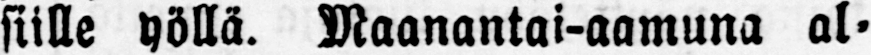siille yöllä. Maanantai-aamuna al-
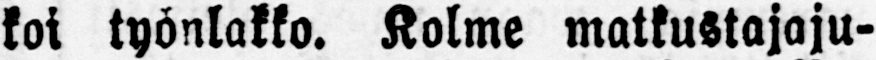koi työnlakko. Kolme matkustajaju-
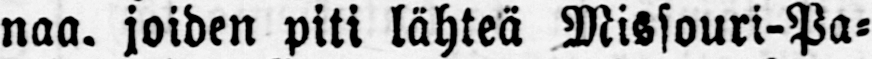naa, joiden piti lähteä Missouri-Pa-
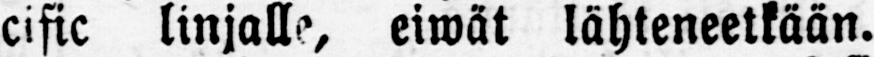cific linjalla, eiwät lähteneetkään.
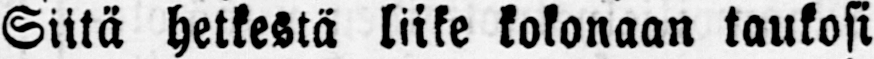Siitä hetkestä liike kokonaan taukosi
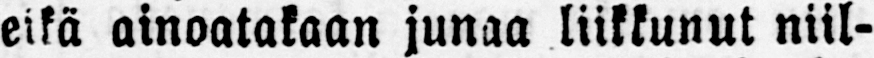eikä ainoatakaan junaa liikkunut niil-
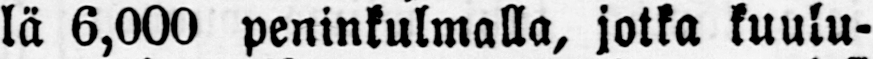lä 6,000 peninkulmalla, jotka kuulu-
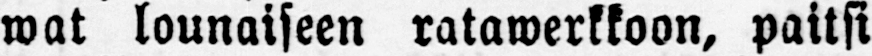wat lounaiseen ratawerkkoon, paitsi
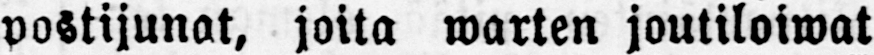postijunat, joita warten joutiloiwat
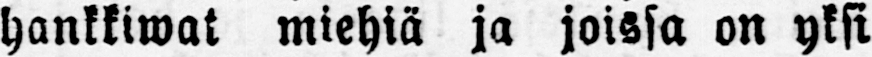hankkiwat miehiä ja joissa on yksi
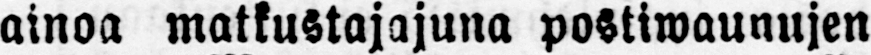ainoa matkustajajuna postiwaunujen
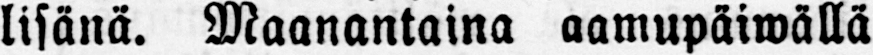lisänä. Maanantaina aamupäiwällä
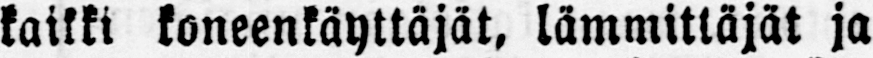kaikki koneenkäyttäjät, lämmittäjät ja
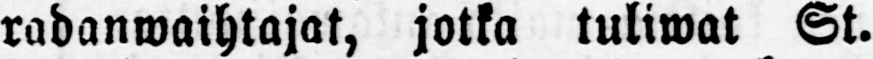rahanwaihtajat, jotka tuliwat St.
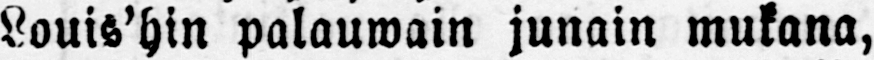Louis'hin palauwain junain mukana,
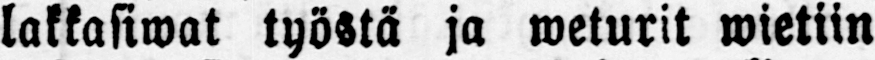lakkasiwat työstä ja weturit wietiin
